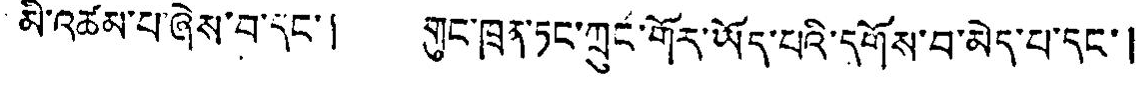མི་འཚམ་པ་ཞེས་བ་དང་། གུང་ཁྲན་ཏང་ཀྲུང་གོར་ཡོད་པའི་དགོས་བ་མེད་པ་དང་།
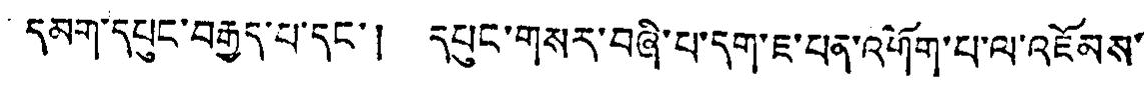དམག་དཔུང་བརྒྱད་པ་དང་། དཔུང་གསར་བཞི་པ་དག་ཇ་པན་འགོག་པ་ལ་འཇོམས་
